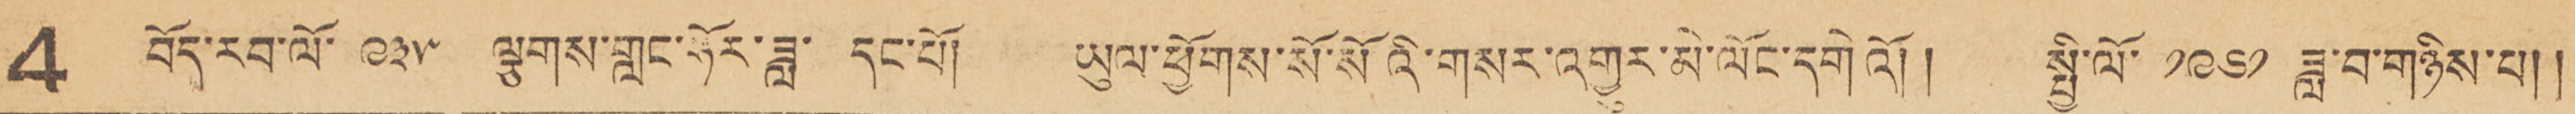4 བོད་རབ་ལོ་ ༩༣༥ ལྕགས་གླང་ཧོར་ཟླ་ དང་པོ། ཡུལ་ཕྱོགས་སོ་སོའི་གསར་འགྱུར་མེ་ལོང་དགེའོ། སྤྱི་ལོ་ ༡༩༦༡ ཟླ་བ་གཉིས་པ། །
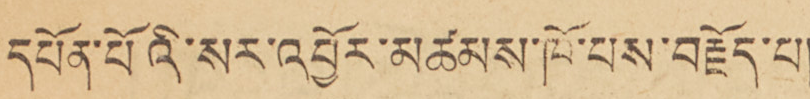དཔོན་པོའི་སར་འབྱོར་མཚམས་ཁོ་པས་བརྗོད་པ།
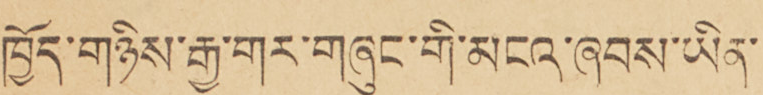ཁྱོད་གཉིས་རྒྱ་གར་གཞུང་གི་མངའ་ཞབས་ཡིན་
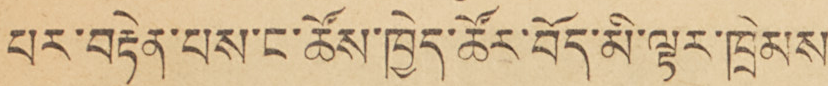པར་བརྟེན་པས་ང་ཚོས་ཁྱེད་ཚོར་བོད་མི་ལྟར་ཁྲིམས་
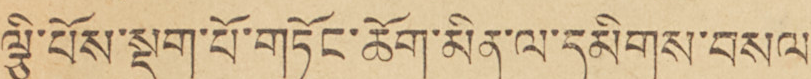ལྕི་པོས་སྡུག་པོ་གཏོང་ཆོག་མིན་ལ་དམིགས་བསལ་
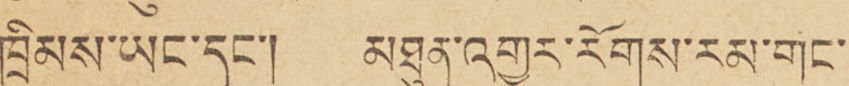ཁྲིམས་ཡང་དང་། མཐུན་འགྱུར་རོགས་རམ་གང་
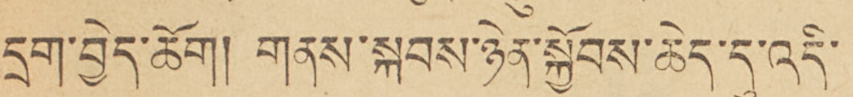དྲག་བྱེད་ཆོག། གནས་སྐབས་ཉེན་སྐྱོབས་ཆེད་དུ་འདི་
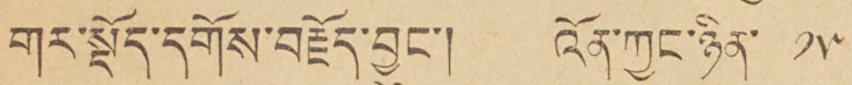གར་སྡོད་དགོས་བརྗོད་བྱུང་། འོན་ཀྱང་ཉིན་ ༡༥
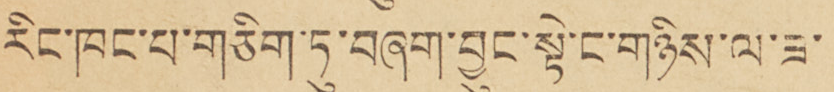རིང་ཁང་པ་གཅིག་ཏུ་བཞག་བྱུང་སྟེ་ང་གཉིས་ལ་ཟ་
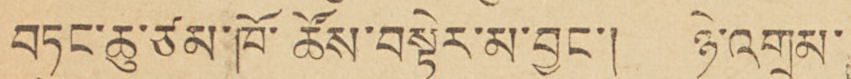བཏུང་ཆུ་ཙམ་ཁོ་ཚོས་བསྟེར་མ་བྱུང་། ཉེ་འགྲམ་
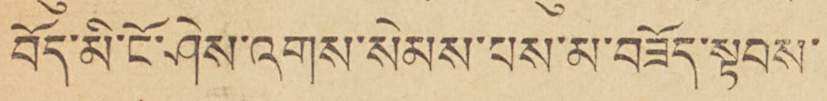བོད་མི་ངོ་ཤེས་འགས་སེམས་པས་མ་བཟོད་སྟབས་
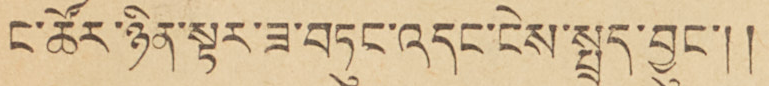ང་ཚོར་ཉིན་སྟར་ཟ་བཏུང་འདང་ངེས་སྤྲད་བྱུང་།།
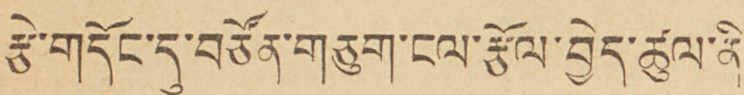རྩེ་གདོང་དུ་བཙོན་གཅུག་ངལ་རྩོལ་བྱེད་ཚུལ་ནི།
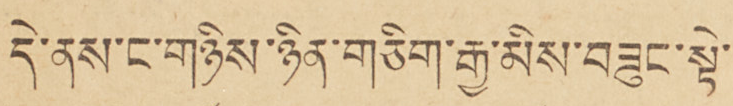དེ་ནས་ང་གཉིས་ཉིན་གཅིག་རྒྱ་མིས་བཟུང་སྟེ་
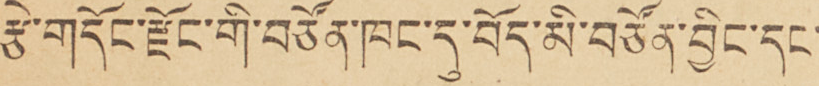རྩེ་གདོང་རྫོང་གི་བཙོན་ཁང་དུ་བོད་མི་བཙོན་བྱིང་དང་
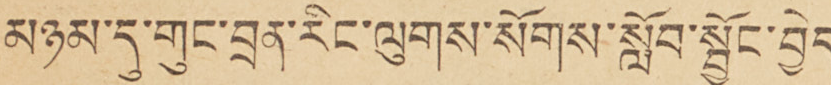མཉམ་དུ་གུང་བྲན་རིང་ལུགས་སོགས་སློབ་སྦྱོང་བྱེད་
